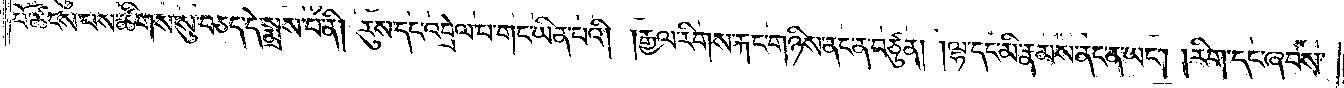པོ་ཚངས་པས་ཚིགས་སུ་བཅད་དེ་སྨྲས་པ་ནི། རུས་དང་འབྲེལ་པ་གང་ཡིན་པའི། །རྒྱལ་རིགས་རྐང་གཉིས་ནང་ན་བཙུན། །ལྷ་དང་མི་རྣམས་ནང་ན་ཡང༌། །རིག་དང་ཞབས་
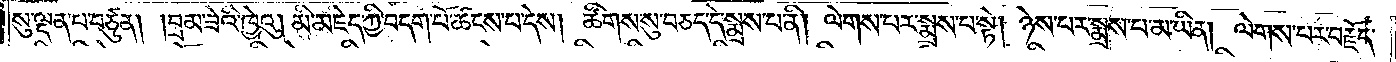སུ་ལྡན་པ་བཙུན། །བྲམ་ཟེའི་ཁྱེའུ། མི་མཇེད་ཀྱི་བདག་པོ་ཚངས་པ་དེས། ཚིགས་སུ་བཅད་དེ་སྨྲས་པ་ནི། ལེགས་པར་སྨྲས་པ་སྟེ། ཉེས་པར་སྨྲས་པ་མ་ཡིན། ལེགས་པར་བརྗོད་
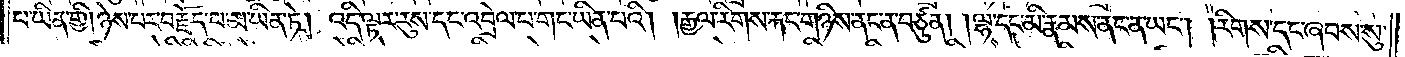པ་ཡིན་གྱི། ཉེས་པར་བརྗོད་པ་མ་ཡིན་ཏེ། འདི་ལྟར་རུས་དང་འབྲེལ་པ་གང་ཡིན་པའི། །རྒྱལ་རིགས་རྐང་གཉིས་ནང་ན་བཙུན། །ལྷ་དང་མི་རྣམས་ནང་ན་ཡང༌། །རིགས་དང་ཞབས་སུ་
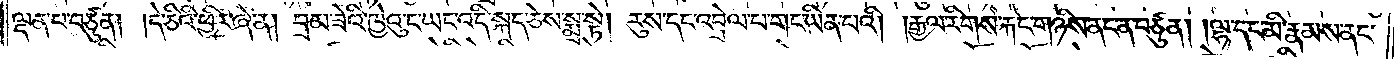ལྡན་པ་བཙུན། །དེ་ཅིའི་ཕྱིར་ཞེ་ན། བྲམ་ཟེའི་ཁྱེའུ་ང་ཡང་འདི་སྐད་ཅེས་སྨྲ་སྟེ། རུས་དང་འབྲེལ་པ་གང་ཡིན་པའི། །རྒྱལ་རིགས་རྐང་གཉིས་ནང་ན་བཙུན། །ལྷ་དང་མི་རྣམས་ནང་
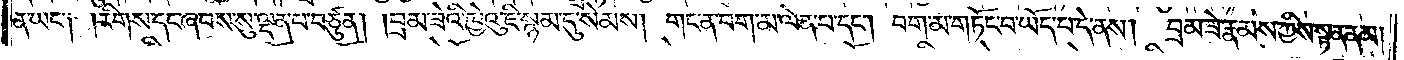ན་ཡང་༑ །རིགས་དང་ཞབས་སུ་ལྡན་པ་བཙུན། །བྲམ་ཟེའི་ཁྱེའུ་ཇི་སྙམ་དུ་སེམས། གང་ན་བག་མ་ལེན་པ་དང༌། བག་མ་གཏོང་བ་ཡོད་པ་དེ་ནས། བྲམ་ཟེ་རྣམས་ཀྱིས་སྟན་ནམ།
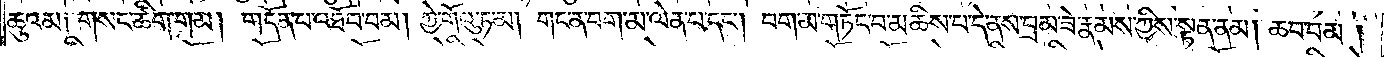ཆུའམ༑ གསང་ཚིག་གམ། གདོན་པ་འཐོབ་བམ། ཀྱེ་གོའུ་ཏ་མ། གང་ན་བག་མ་ལེན་པ་དང༌། བག་མ་གཏོང་བ་མཆིས་པ་དེ་ནས་བྲམ་ཟེ་རྣམས་ཀྱིས་སྟན་ནམ། ཆབ་བམ།
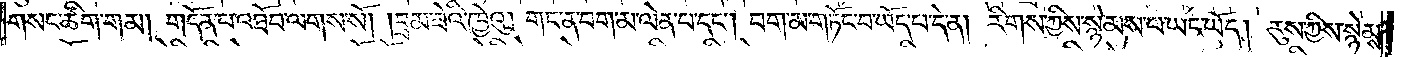གསང་ཚིག་གམ། གདོན་པ་འཐོབ་ལགས་སོ། །བྲམ་ཟེའི་ཁྱེའུ། གང་ན་བག་མ་ལེན་པ་དང༌། བག་མ་གཏོང་པ་ཡོད་པ་དེ་ན། རིགས་ཀྱིས་སྙེམས་པ་ཡང་ཡོད། རུས་ཀྱིས་སྙེམས་
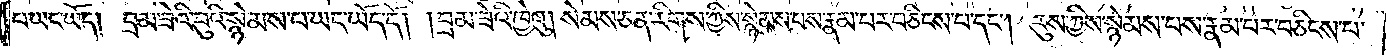པ་ཡང་ཡོད། བྲམ་ཟེའི་བུའི་སྙེམས་པ་ཡང་ཡོད་དོ། །བྲམ་ཟེའི་ཁྱེའུ། སེམས་ཅན་རིགས་ཀྱིས་སྙེམས་པས་རྣམ་པར་བཅིངས་པ་དང༌། རུས་ཀྱིས་སྙེམས་པས་རྣམ་པར་བཅིངས་པ་
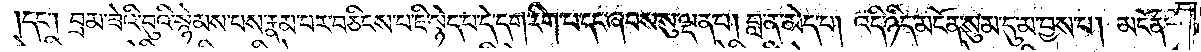དང༌། བྲམ་ཟེའི་བུའི་སྙེམས་པས་རྣམ་པར་བཅིངས་པ་ཇི་སྙེད་པ་དེ་དག་རིག་པ་དང་ཞབས་སུ་ལྡན་པ། བླ་ན་མེད་པ། འདི་ཉིད་མངོན་སུམ་དུ་མ་བྱས་པ། མངོན་
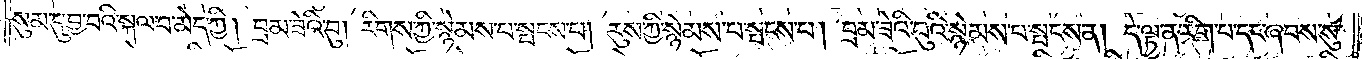སུམ་དུ་བྱ་བའི་སྐལ་བ་མེད་ཀྱི། བྲམ་ཟེའི་བུ། རིགས་ཀྱི་སྙེམས་པ་སྤངས་པ། རུས་ཀྱི་སྙེམས་པ་སྤངས་པ། བྲམ་ཟེའི་བུའི་སྙེམས་པ་སྤངས་ན། དེ་ལྟ་ན་རིག་པ་དང་ཞབས་སུ་
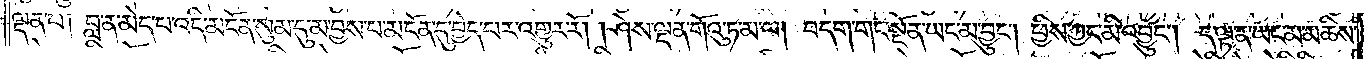ལྡན་པ། བླ་ན་མེད་པ་འདི་མངོན་སུམ་དུ་མ་བྱས་པ་མངོན་དུ་བྱེད་པར་འགྱུར་རོ། །ཤེས་ལྡན་གོའུ་ཏ་མ་ལ། བདག་གང་སྔོན་ཡང་མ་བྱུང༌། ཕྱིས་ཀྱང་མི་འབྱུང༌། ད་ལྟ་ན་ཡང་མ་མཆིས་
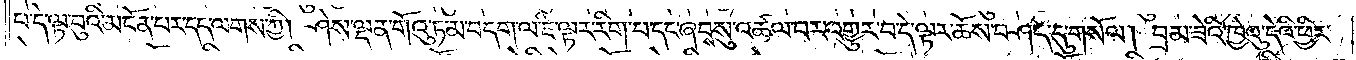པ་དེ་ལྟ་བུའི་མངོན་པར་དད་ལགས་ཀྱི། ཤེས་ལྡན་གོའུ་ཏ་མ་བདག་ལ་ཇི་ལྟར་རིག་པ་དང་ཞབས་སུ་འཚལ་བར་འགྱུར་བ་དེ་ལྟར་ཆོས་བཤད་དུ་གསོལ། བྲམ་ཟེའི་ཁྱེའུ་དེའི་ཕྱིར་
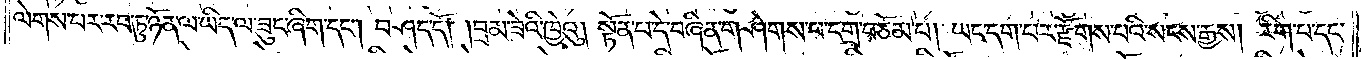ལེགས་པར་རབ་ཏུ་ཉོན་ལ་ཡིད་ལ་ཟུང་ཞིག་དང༌། བཤད་དོ། །བྲམ་ཟེའི་ཁྱེའུ། སྟོན་པ་དེ་བཞིན་གཤེགས་པ་དགྲ་བཅོམ་པ། ཡང་དག་པར་རྫོགས་པའི་སངས་རྒྱས། རིག་པ་དང་
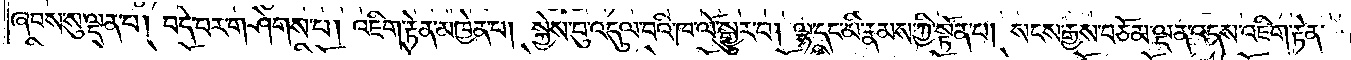ཞབས་སུ་ལྡན་པ། བདེ་བར་གཤེགས་པ། འཇིག་རྟེན་མཁྱེན་པ། སྐྱེས་བུ་འདུལ་བའི་ཁ་ལོ་སྒྱུར་བ། ལྷ་དང་མི་རྣམས་ཀྱི་སྟོན་པ། སངས་རྒྱས་བཅོམ་ལྡན་འདས་འཇིག་རྟེན་
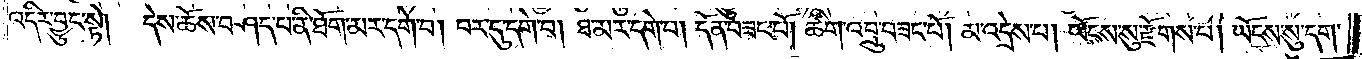འདིར་བྱུང་སྟེ། དེས་ཆོས་བཤད་པ་ནི་ཐོག་མར་དགེ་བ། བར་དུ་དགེ་བ། ཐ་མར་དགེ་བ། དོན་བཟང་པོ། ཚིག་འབྲུ་བཟང་པོ། མ་འདྲེས་པ། ཡོངས་སུ་རྫོགས་པ། ཡོངས་སུ་དག་
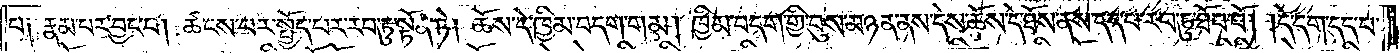པ༑ རྣམ་པར་བྱང་བ། ཚངས་པར་སྤྱོད་པར་རབ་ཏུ་སྟོན་ཏེ། ཆོས་དེ་ཁྱིམ་བདག་གམ། ཁྱིམ་བདག་གྱི་བུས་མཉན་ནས་དེས་ཆོས་དེ་ཐོས་ནས་དད་པར་རབ་ཏུ་ཐོབ་བོ། །དེ་དག་དད་པ་
